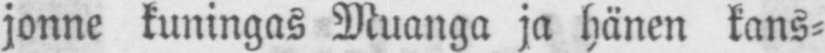jonne kuningas Muanga ja hänen kans-
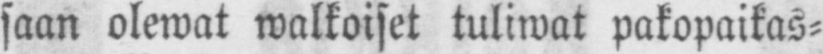saan olewat walkoiset tuliwat pakopaikas-
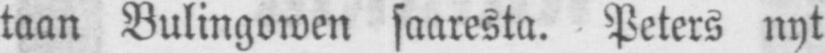taan Bulingowen saaresta. Peters nyt
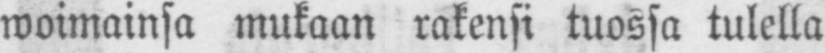woimainsa mukaan rakensi tuossa tulella
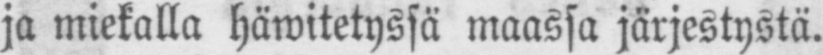ja miekalla häwitetyssä maassa järjestystä.
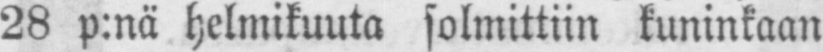28 p:nä helmikuuta solmittiin kuninkaan
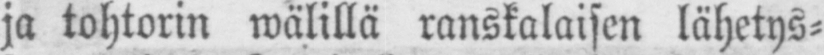ja tohtorin wälillä ranskalaisen lähetys-
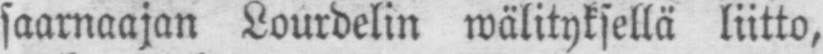saarnaajan Lourdelin wälityksellä liitto,
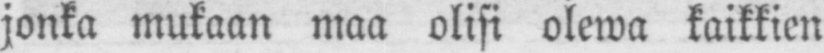jonka mukaan maa olisi olewa kaikkien
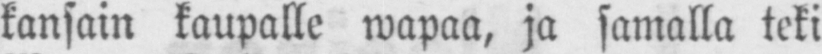kansain kaupalle wapaa, ja samalla teki
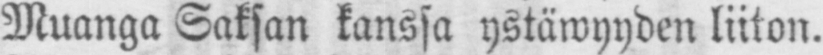Muanga Saksan kanssa ystäwyyden liiton.
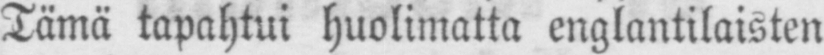Tämä tapahtui huolimatta englantilaisten
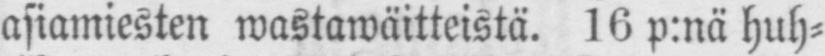asiamiesten wastawäitteistä. 16 p:nä huh-
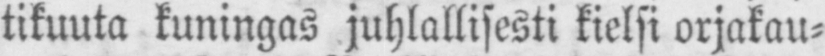tikuuta kuningas juhlallisesti kielsi orjakau-
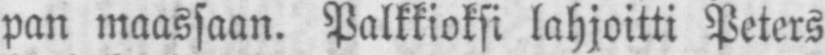pan maassaan. Palkkioksi lahjoitti Peters
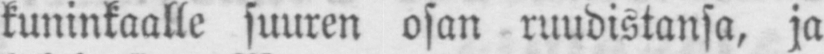kuninkaalle suuren osan ruudistansa, ja
